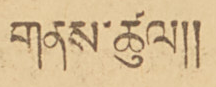གནས་ཚུལ།།
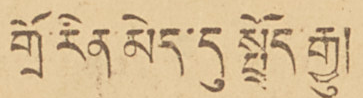གྲོ་རིན མེད་དུ སྤྲོད་རྒྱུ།
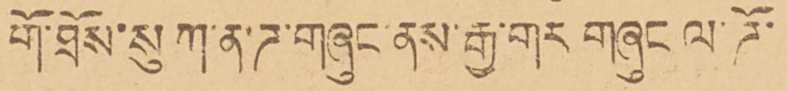གོ་ཐོས་སུ ཀ་ན་ཌ་གཞུང་ནས་རྒྱ་གར གཞུང ལ་ཌོ་
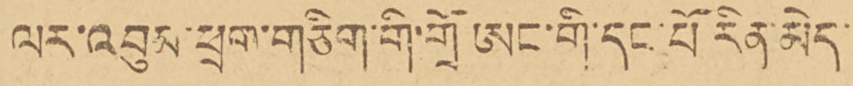ལར་འབུམ་ཕྲག་གཅིག་གི་གྲོ ཨང་གི་དང་པོ རིན་མེད་
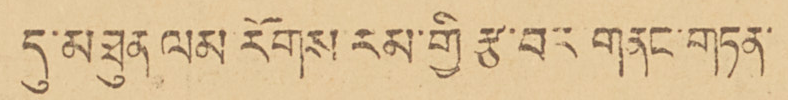དུ་མཐུན ལམ རོགས རམ་གྱི རྩ་བར གནང་གཏན་
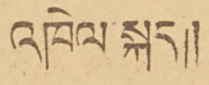འཁེལ་སྐད།།
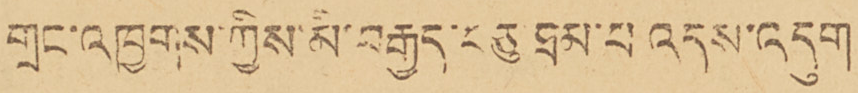གྲང་འཁྱགས་ཀྱིས་མི་བརྒྱད་བཅུ ཐམ་པ འདུས་འདུག
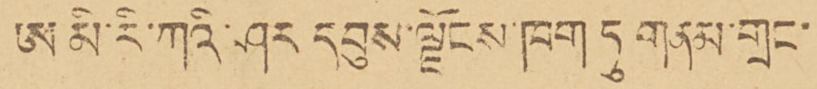ཨ མི་རི་ཀའི་ཤར དབུས་ལྗོངས་ཁག ཏུ གནམ་གྲང་
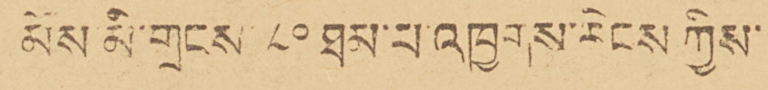མོས མི་གྲངས་ ༨༠ ཐམ་པ་འཁྱགས་རིངས ཀྱིས་
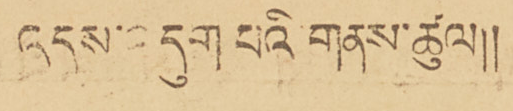འདས་འདུག པའི་གནས་ཚུལ།།
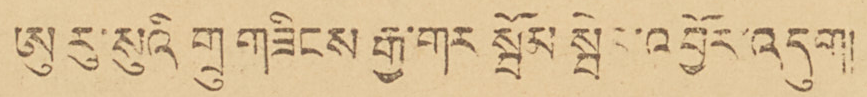ཨུ རུ་སུའི གྲུ གཟིངས རྒྱ་གར སྦོམ སྦྱེར་འབྱོར་འདུག།།
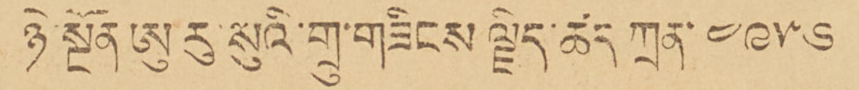ཉེ་སྔོན ཨུ རུ་སུའི་གྲུ་གཟིངས ལྗིད་ཚད ཀྲན་ ༤༩༥༦
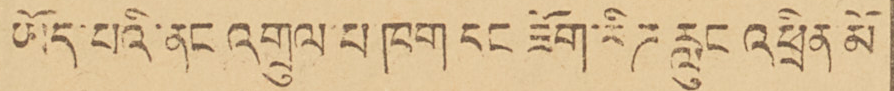ཡོད་པའི་ནང འགྲུལ་པ ཁག དང ཟོག་རིཌ རླུང འཕྲིན མོ
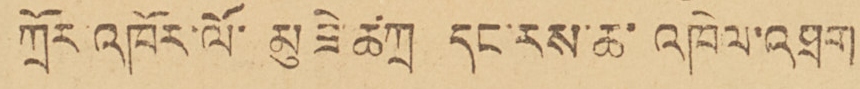ཀྲོར་འཁོར་ལོ་མུ ཟེ་ཚཀྲ དང་རས་ཆ་འཁེལ་འཐག
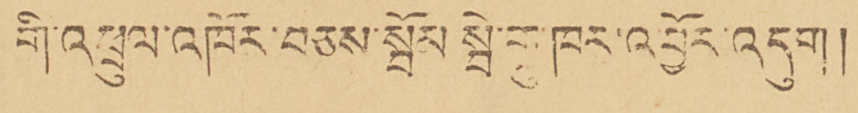གི་འཕྲུལ་འཁོར་བཅས་སྦོམ སྦེ་བུ་གྲུ་ཁར་འབྱོར་འདུག།།
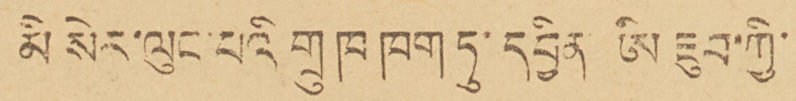མི སེར་ལུང་པའི གྲུ ཁ ཁག ཏུ་དབྱིན ཨི ཇུབ་ཀྱི་
